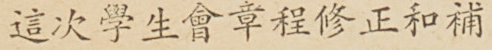這次學生會章程修正和補
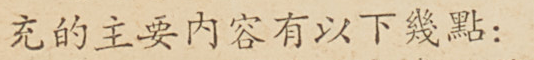充的主要內容有以下幾點：
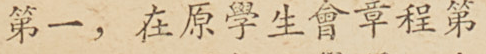第一，在院學生會章程第
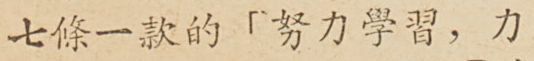七條一款的「努力學習，力
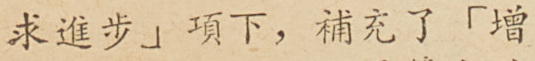求進步」項下，補充了「增
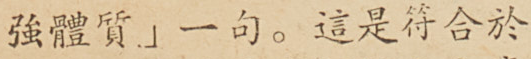強體質」一句。這是符合於
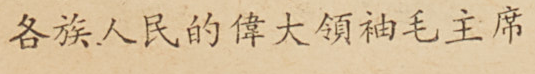各族人民的偉大領袖毛主席
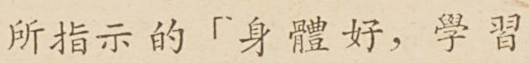所指示的「身體好，學習
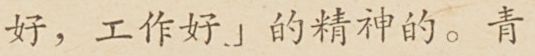好，工作好」的精神的。青
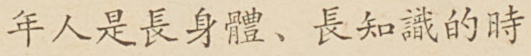年人是長身體、長知識的時
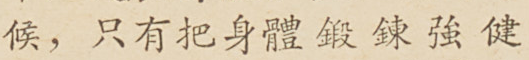候，只有把身體鍛鍊強健
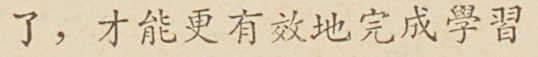了，才能更有效地完成學習
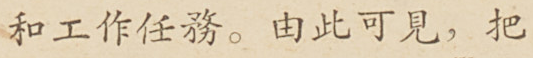和工作任務。由此可見，把
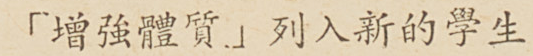「增強體質」列入新的學生
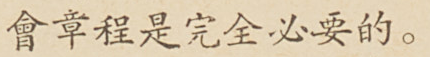會章程是完全必要的。
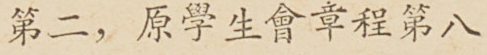第二，原學生會章程第八
